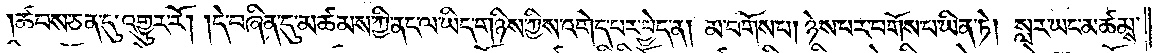ཚབས་ཅན་དུ་འགྱུར་རོ། །དེ་བཞིན་དུ་མཚམས་ཀྱི་ནང་ལ་ཡིད་གཉིས་ཀྱིས་འགེད་པར་བྱེད་ན། མ་བགོས་པ། ཉེས་པར་བགོས་པ་ཡིན་ཏེ། སླར་ཡང་མཚམས་
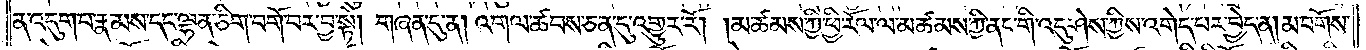ན་འདུག་པ་རྣམས་དང་ལྷན་ཅིག་བགོ་བར་བྱ་སྟེ། གཞན་དུ་ན། འགལ་ཚབས་ཅན་དུ་འགྱུར་རོ། །མཚམས་ཀྱི་ཕྱི་རོལ་ལ་མཚམས་ཀྱི་ནང་གི་འདུ་ཤེས་ཀྱིས་འགེད་པར་བྱེད་ན། མ་བགོས་
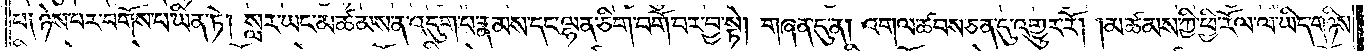པ། ཉེས་པར་བགོས་པ་ཡིན་ཏེ། སླར་ཡང་མཚམས་ན་འདུག་པ་རྣམས་དང་ལྷན་ཅིག་བགོ་བར་བྱ་སྟེ། གཞན་དུ་ན། འགལ་ཚབས་ཅན་དུ་འགྱུར་རོ། །མཚམས་ཀྱི་ཕྱི་རོལ་ལ་ཡིད་གཉིས་
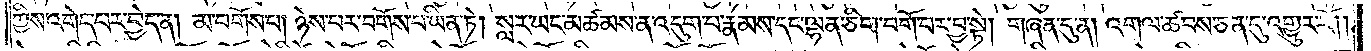ཀྱིས་འགེད་པར་བྱེད་ན། མ་བགོས་པ། ཉེས་པར་བགོས་པ་ཡིན་ཏེ། སླར་ཡང་མཚམས་ན་འདུག་པ་རྣམས་དང་ལྷན་ཅིག་བགོ་བར་བྱ་སྟེ། གཞན་དུ་ན། འགལ་ཚབས་ཅན་དུ་འགྱུར་རོ། །
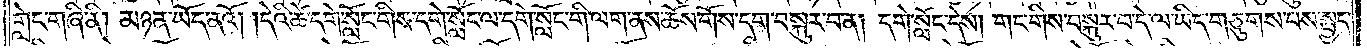གླེང་གཞི་ནི། མཉན་ཡོད་ནའོ། །དེའི་ཚེ་དགེ་སློང་གིས་དགེ་སློང་ལ་དགེ་སློང་གི་ལག་ནས་ཆོས་གོས་དག་བསྐུར་བ་ན། དགེ་སློང་དེས། གང་གིས་བསྐུར་བ་དེ་ལ་ཡིད་གཅུགས་པས་སྤྱད་
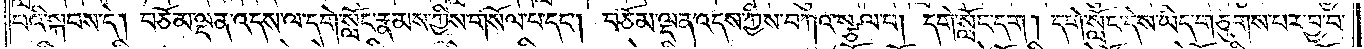པའི་སྐབས་དེ། བཅོམ་ལྡན་འདས་ལ་དགེ་སློང་རྣམས་ཀྱིས་གསོལ་པ་དང༌། བཅོམ་ལྡན་འདས་ཀྱིས་བཀའ་སྩལ་པ། དགེ་སློང་དག། དགེ་སློང་དེས་ཡིད་གཅུགས་པར་བྱ་བ་
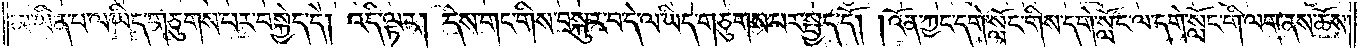མ་ཡིན་པ་ལ་ཡིད་གཅུགས་པར་བསྐྱེད་དེ། འདི་ལྟར། དེས་གང་གིས་བསྐུར་བ་དེ་ལ་ཡིད་གཅུགས་པར་སྤྱད་དོ། །འོན་ཀྱང་དགེ་སློང་གིས་དགེ་སློང་ལ་དགེ་སློང་གི་ལག་ནས་ཆོས།
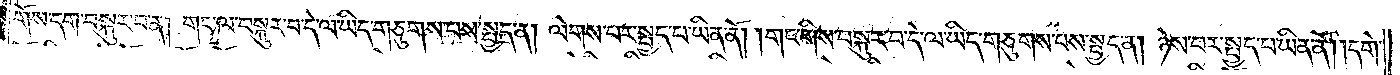གོས་དག་བསྐུར་བ་ན། གང་ལ་བསྐུར་བ་དེ་ལ་ཡིད་གཅུགས་པས་སྤྱད་ན། ལེགས་པར་སྤྱད་པ་ཡིན་ནོ། །གང་གིས་བསྐུར་བ་དེ་ལ་ཡིད་གཅུགས་པས་སྤྱད་ན། ཉེས་པར་སྤྱད་པ་ཡིན་ནོ། །དགེ་
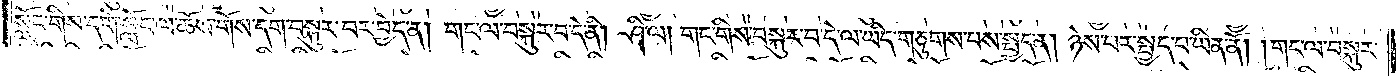སློང་གིས་དགེ་སློང་ལ་ཆོས་གོས་དག་བསྐུར་བར་བྱེད་ན། གང་ལ་བསྐུར་བ་དེ་ནི། ཤི་ལ། གང་གིས་བསྐུར་བ་དེ་ལ་ཡིད་གཅུགས་པས་སྤྱད་ན། ཉེས་པར་སྤྱད་པ་ཡིན་ནོ། །གང་ལ་བསྐུར་
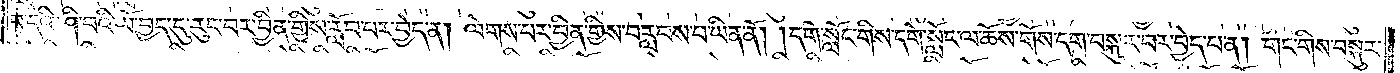བ་དེའི་ཤི་བའི་ཡོ་བྱད་དུ་རུང་བར་བྱིན་གྱིས་རློབ་པར་བྱེད་ན། ལེགས་པར་བྱིན་གྱིས་བརླབས་པ་ཡིན་ནོ། །དགེ་སློང་གིས་དགེ་སློང་ལ་ཆོས་གོས་དག་བསྐུར་བར་བྱེད་པ་ན། གང་གིས་བསྐུར་
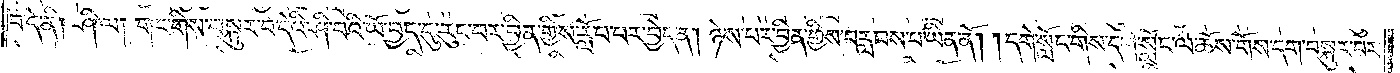བ་དེ་ནི། ཤི་ལ། གང་གིས་བསྐུར་བ་དེའི་ཤི་བའི་ཡོ་བྱད་དུ་རུང་བར་བྱིན་གྱིས་རློབ་པར་བྱེད་ན། ཉེས་པར་བྱིན་གྱིས་བརླབས་པ་ཡིན་ནོ། །དགེ་སློང་གིས་དགེ་སློང་ལ་ཆོས་གོས་དག་བསྐུར་བར་
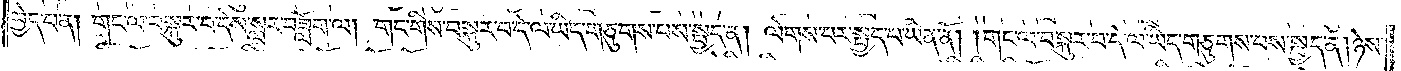བྱེད་པ་ན། གང་ལ་བསྐུར་བ་དེས་སླར་བཟློག་ལ། གང་གིས་བསྐུར་བ་དེ་ལ་ཡིད་གཅུགས་པས་སྤྱད་ན། ལེགས་པར་སྤྱད་པ་ཡིན་ནོ། །གང་ལ་བསྐུར་བ་དེ་ལ་ཡིད་གཅུགས་པས་སྤྱད་ན། ཉེས་
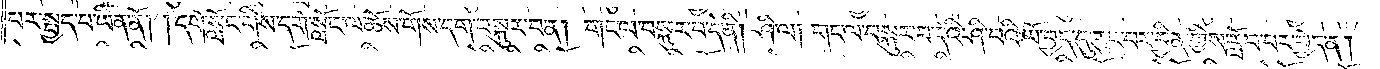པར་སྤྱད་པ་ཡིན་ནོ། །དགེ་སློང་གིས་དགེ་སློང་ལ་ཆོས་གོས་དག་བསྐུར་བ་ན། གང་ལ་བསྐུར་བ་དེ་ནི། ཤི་ལ། གང་ལ་བསྐུར་བ་དེའི་ཤི་པའི་ཡོ་བྱད་དུ་རུང་བར་བྱིན་གྱིས་རློབ་པར་བྱེད་ན།
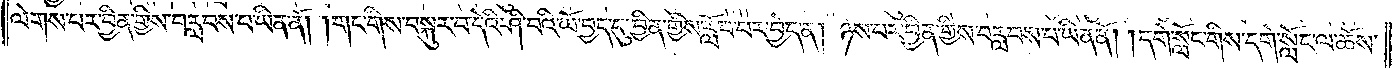ལེགས་པར་བྱིན་གྱིས་བརླབས་པ་ཡིན་ནོ། །གང་གིས་བསྐུར་བ་དེའི་ཤི་བའི་ཡོ་བྱད་དུ་བྱིན་གྱིས་རློབ་པར་བྱེད་ན། ཉེས་པར་བྱིན་གྱིས་བརླབས་པ་ཡིན་ནོ། །དགེ་སློང་གིས་དགེ་སློང་ལ་ཆོས་
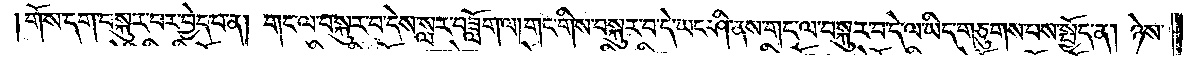།གོས་དག་བསྐུར་བར་བྱེད་པ་ན། གང་ལ་བསྐུར་བ་དེས་སླར་བཟློག་ལ། གང་གིས་བསྐུར་བ་དེ་ཡང་ཤི་ནས་གང་ལ་བསྐུར་བ་དེ་ལ་ཡིད་གཅུགས་པས་སྤྱོད་ན། ཉེས་
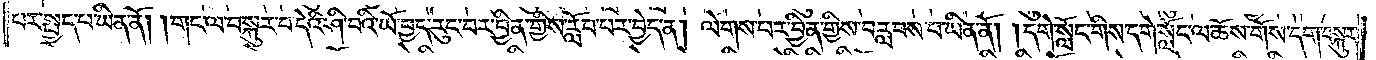པར་སྤྱད་པ་ཡིན་ནོ། །གང་ལ་བསྐུར་བ་དེའི་ཤི་བའི་ཡོ་བྱད་རུང་བར་བྱིན་གྱིས་རློབ་པར་བྱེད་ན། ལེགས་པར་བྱིན་གྱིས་བརླབས་པ་ཡིན་ནོ། །དགེ་སློང་གིས་དགེ་སློང་ལ་ཆོས་གོས་དག་བསྐུར་
